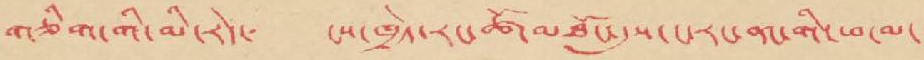གཅིག་གི་མི་རེད་ ངས་ཁྱེད་རང་ཚོ་མཐོང་དུས་ང་རང་ནང་གི་ཕ་མ་
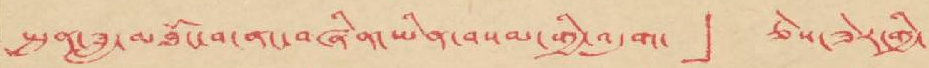སྤུན་ཟླ་མཐོང་བ་ནང་བཞིན་ཡིན་བསམ་གྱི་འདུག་」 ཅེས་ཟེར་གྱི་
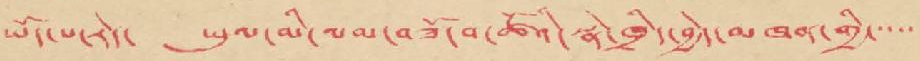ཡོད་པ་རེད་ ཡུལ་མི་ལམ་བཟོ་བ་ཚོའི་སྣེ་ཁྲིད་བྱེད་མཁན་གྱི་་་་་
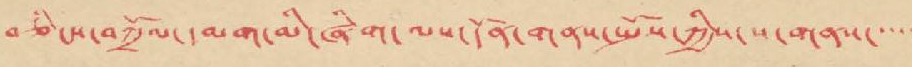བཅིངས་བཀྲོལ་དམག་མི་ཞིག་ལས་དོན་གནས་སྤོས་ཀྱིས་ས་གནས་་་་་
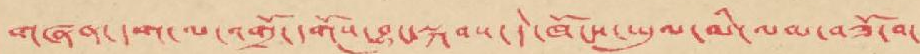གཞན་དག་ལ་འགྲོ་དགོས་བྱུང་སྐབས་དེ་ཁོངས་ཡུལ་མི་ལམ་བཟོ་བ་
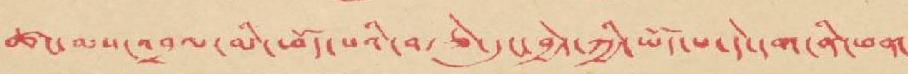ཚང་མས་འབྲལ་མི་ཕོད་པའི་བརྩེ་དུང་བྱེད་ཀྱི་ཡོད་པ་དེ་དག་ནི་ཕན་
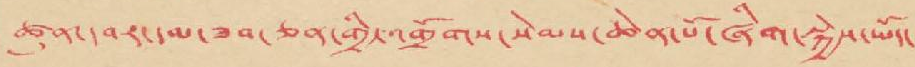ཚུན་དབར་དམ་ཟབ་ཅན་གྱི་འགྲོགས་སེམས་ཆེན་པོ་ཞིག་སྐྱེས་ཡོད་
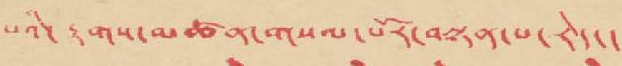པའི་རྟགས་མཚན་གསལ་པོར་བསྟན་པ་རེད་།
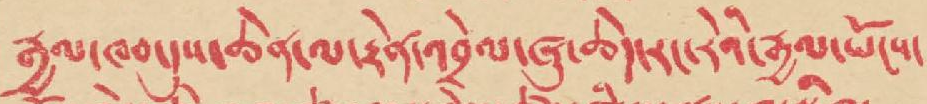རྒྱལ་ཁབ་དུས་ཆེན་ལ་རྟེན་འབྲེལ་ཞུ་ཆེད་རང་རེའི་རྒྱལ་ཡོངས་
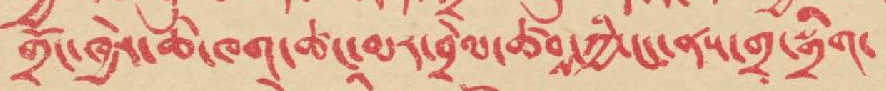གྲོང་ཁྱེར་ཆེ་ཁག་ཚང་མར་བྲེལ་ཚབས་ཀྱི་ངང་ནས་གྲ་སྒྲིག་
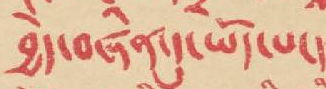བྱེད་བཞིན་དུ་ཡོད་པ་།
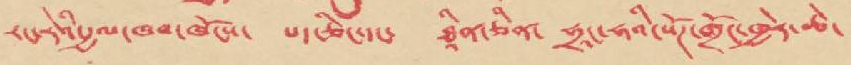རང་རེའི་རྒྱལ་ཁབ་ཁོངས་ པད་ཅིང་དང་ ཐཱིན་ཅིན་ ཧྲཱང་ཧའི་སོཊ་གྲོང་ཁྱེར་ཆེ་
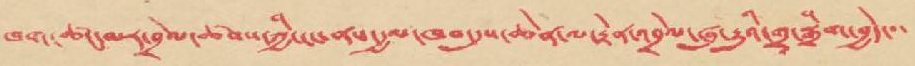ཁག་ཚང་མར་བྲེལ་ཚབས་ཀྱི་ངང་ནས་རྒྱལ་ཁབ་དུས་ཆེན་ལ་རྟེན་འབྲེལ་ཞུ་རྒྱུའི་གྲ་སྒྲིག་བྱེད་་་
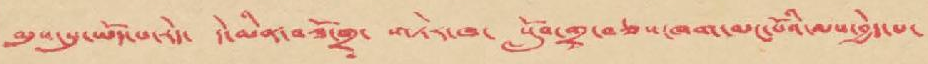མུས་སུ་ཡོད་པ་རེད་ དེ་མིན་བཟོ་གྲྭ་ གཏེར་ཁ་ སློབ་གྲྭ་བཅས་ཁག་མང་པོའི་ལས་བྱེད་པ་
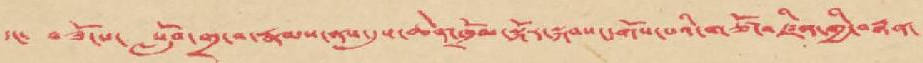དང་ བཟོ་པ་ སློབ་གྲྭ་བ་རྣམས་ནས་དུས་ཆེན་ཁྲོམ་སྐོར་སྐབས་དགོས་པའི་གཙོ་འཛིན་གྱི་བརྙན་
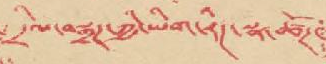དྲེལ་བསྒྲཊ་ཀྱི་ཡིག་རིཊ་སྣ་ཚོཊ་
